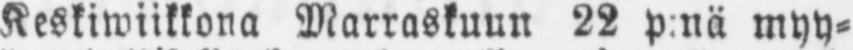Keskiwiikkona Marraskuun 22 p:nä myy-
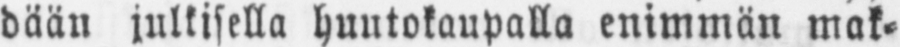dään julkisella huutokaupalla enimmän mak-
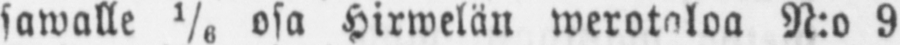sawalle ⅙ osa Hirwelän werotaloa N:o 9
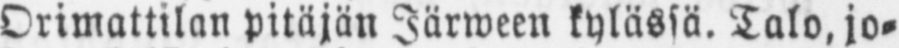Orimattilan pitäjän Järween kylässä. Talo, jo-
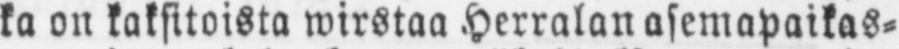ka on kaksitoista wirstaa Herralan asemapaikas-
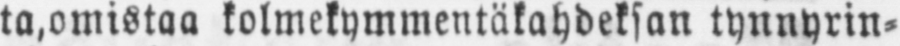ta, omistaa kolmekymmentäkahdeksan tynnyrin-
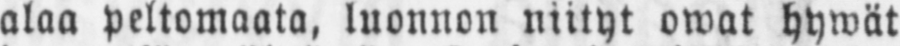alaa peltomaata, luonnon niityt owat hywät
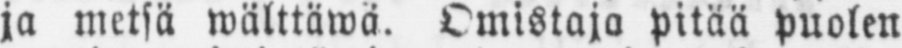ja metsä wälttäwä. Omistaja pitää puolen
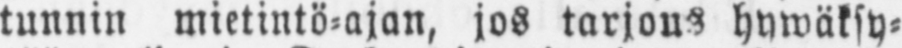tunnin mietintö-ajan, jos tarjous hywäksy-
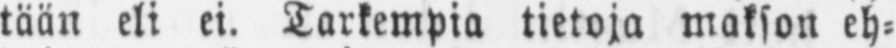tään eli ei. Tarkempia tietoja makson eh-
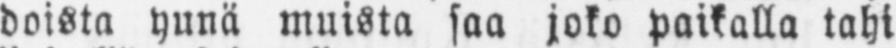doista yunä muista saa joko paikalla tahi
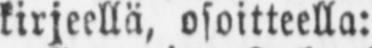kirjeellä, osoitteella:
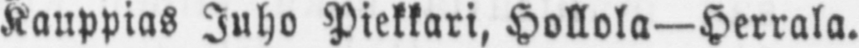Kauppias Juho Piekkari, Hollola—Herrala.
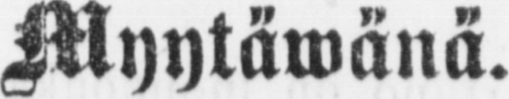Myytäwänä.
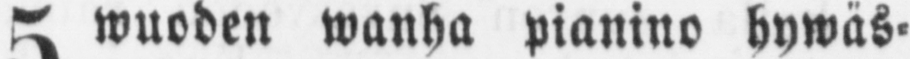5 wuoden wanha pianino hywäs-
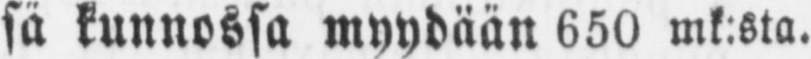sä kunnossa myydään 650 mk:sta.
